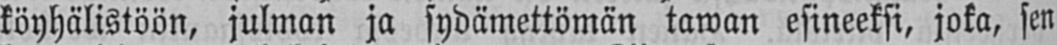köyhälistöön, julman ja sydämettömän tawan esineeksi, joka, sen
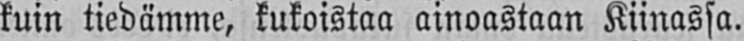kuin tiedämme, kukoistaa ainoastaan Kiinassa.
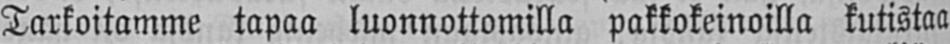Tarkoitamme tapaa luonnottomilla pakkokeinoilla kutistaa
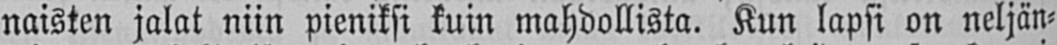naisten jalat niin pieniksi kuin mahdollista. Kun lapsi on neljän-
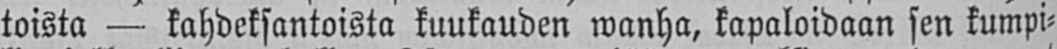toista — kahdeksantoista kuukauden wanha, kapaloidaan sen kumpi-
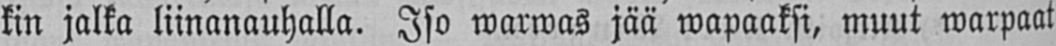kin jalka liinanauhalla. Iso warwas jää wapaaksi, muut warpaat
